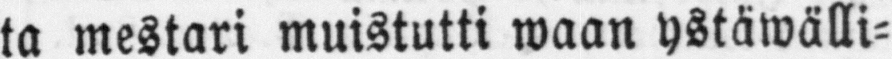ta mestari muistutti waan ystäwälli-
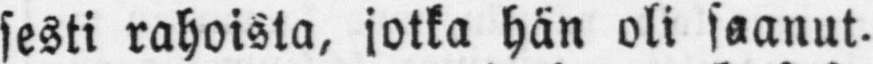sesti rahoista, jotka hän oli saanut.
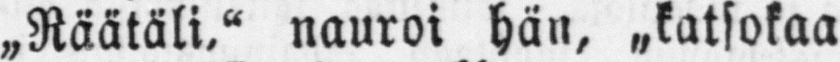„Räätäli." nauroi hän, „katsokaa
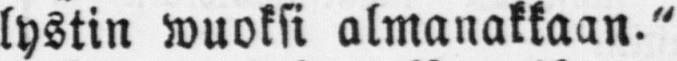lystin wuoksi almanakkaan."
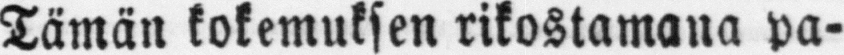Tämän kokemuksen rikostamana pa-
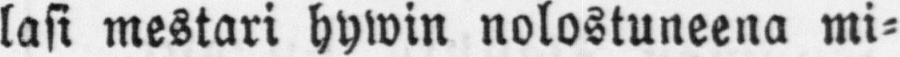lasi mestari hywin nolostuneena mi-
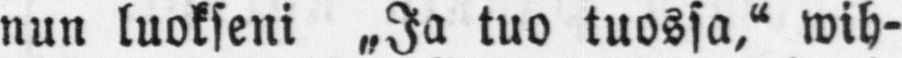nun luokseni „Ja tuo tuossa," wih-
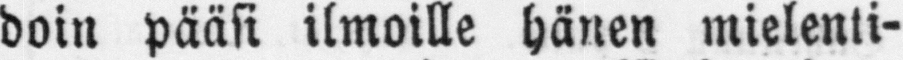doin pääsi ilmoille hänen mielenti-
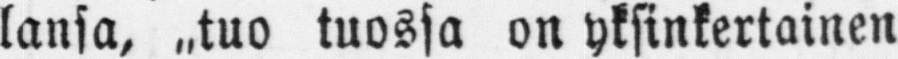lansa, „tuo tuossa on yksinkertainen
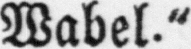Wabel."
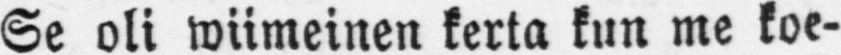Se oli wiimeinen kerta kun me koe-
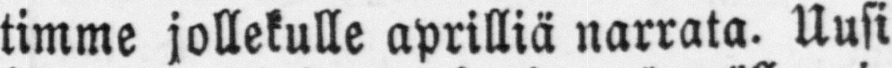timme jollekulle aprilliä narrata. Uusi
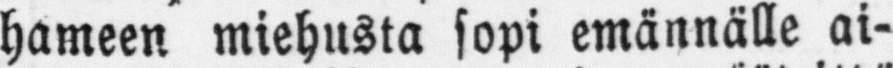hameen miehusta sopi emännälle ai-
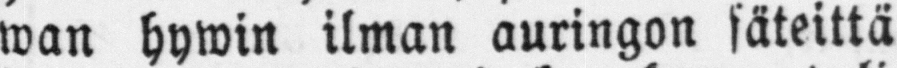wan hywin ilman auringon säteittä
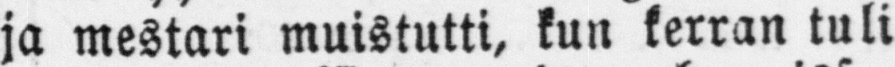ja mestari muistutti, kun kerran tuli
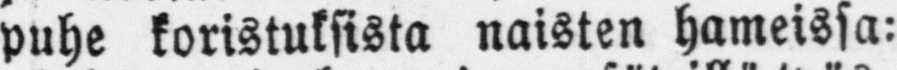puhe koristuksista naisten hameissa:
